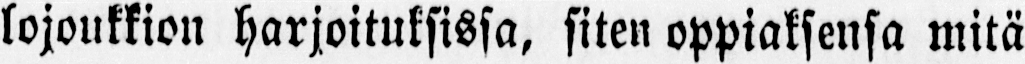lojoukkion harjoituksissa, siten oppiaksensa mitä
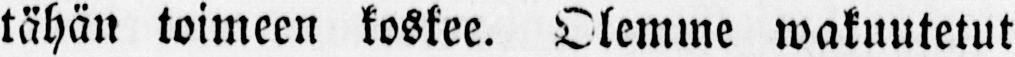tähän toimeen koskee. Olemme wakuutetut
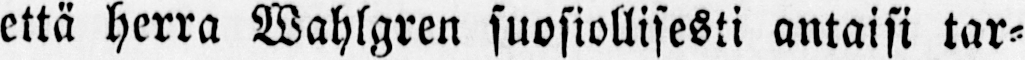että herra Mahlgren suosiollisesti antaisi tar-
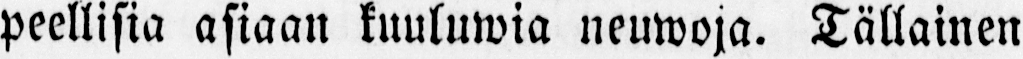peellisia asiaan kuuluwia neuwoja. Tällainen
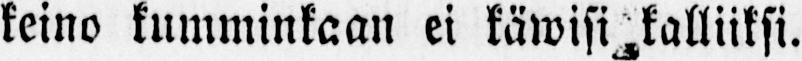keino kumminkaan ei käwisi kalliiksi.
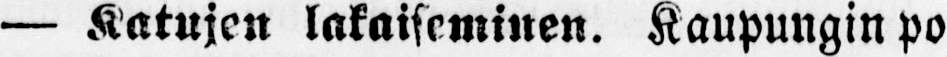— Katujen lakaiseminen. Kaupungin po-
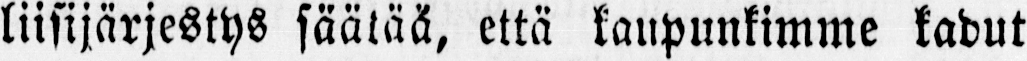liisijärjestys säätää, että kaupunkimme kadut
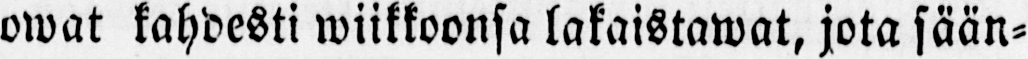owat kahdesti wiikkoonsa lakaistawat, jota sään-
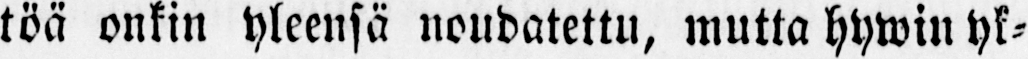töä onkin yleensä noudatettu, mutta hywin yk-
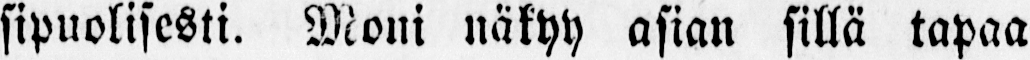sipuolisesti. Moni näkyy asian sillä tapaa
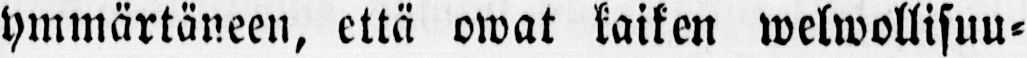ymmärtäneen, että owat kaiken welwollisuu-
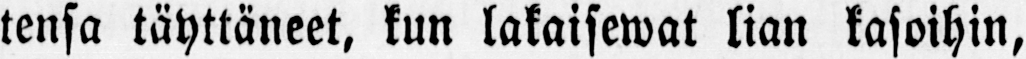tensa täyttäneet, kun lakaisewat lian kasoihin,
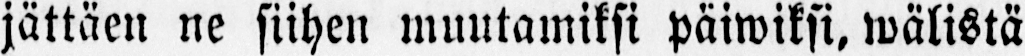jättäen ne siihen muutamiksi päiwiksi, wälistä
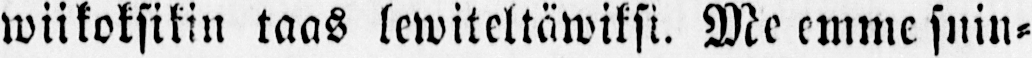wikoksikin taas lewiteltäwiksi. Me emme suin-
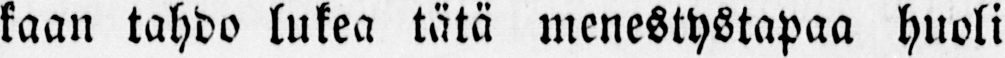kaan tahdo lukea tätä menestystapaa huoli
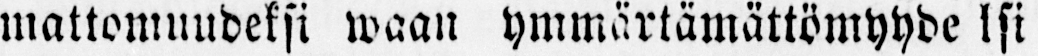mattomuudeksi waan ymmärtämättömyydeksi
